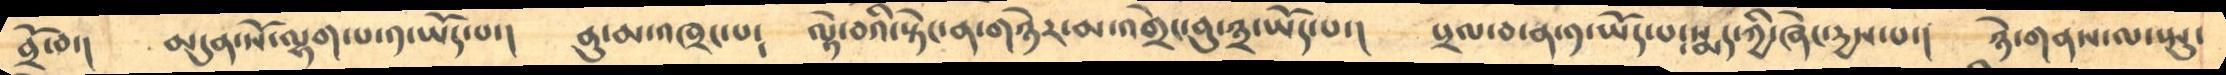བྲོ་བ་།      མདུན་སོ་ལྷག་པ་༡་ཡོད་པ་།    ནུ་མ་འཁྲང་པ༴      ལྟེ་བའི་སྟེང་ན་གཉེར་མ་འགྲེང་བུ་༣་ཡོད་པ་།    པྲལ་བ་ན་༡་ཡོད་པ༴སྨད་ཀྱི་ཞེང་དྱས་པ་།    ཉེ་གནས་ལ་སྤུ་
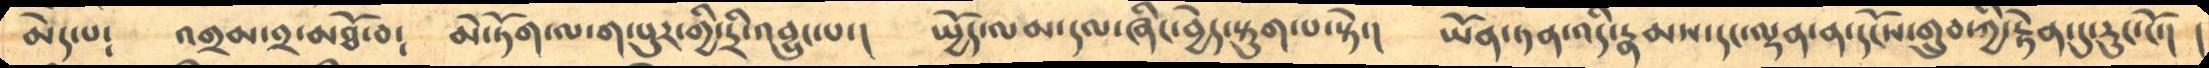མེད་པ༴   འགྲམ་༢་མཐོ་བ༴    མེ་ཏོག་ལ་ག་པུར་གྱི་དྲི་འབྱུང་པ་།      སྤྱོད་ལམ་དལ་ཞིང་བྱེད་སྟུག་པ་སྟེ་།      ཡོན་ཏན་འདི་རྣམས་དང་ལྡན་ན་དངོས་གྲུབ་ཀྱི་རྟེན་དུ་རུང་ངོ་།   །
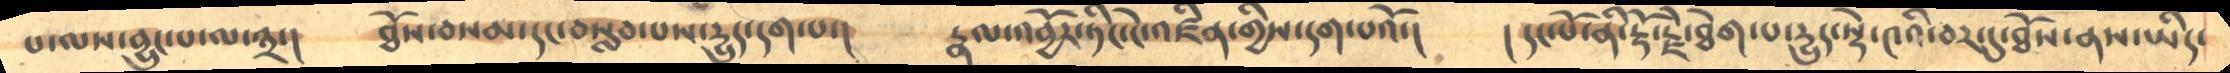པ་ལས་བྱུང་པ་ལ་༣་།     ཐོས་བསམ་དང་བསླབ་པས་དྱུད་དག་པ་།     རྣལ་འབྱོར་ཏིང་ངེ་འཛིན་གྱིས་དག་པའོ་།    །དང་པོ་ནི་རྡོ་རྗེ་ཐེག་པ་དྱུད་སྡེ་༤འི་བར་དུ་ཐོས་ནས་ཡིད་
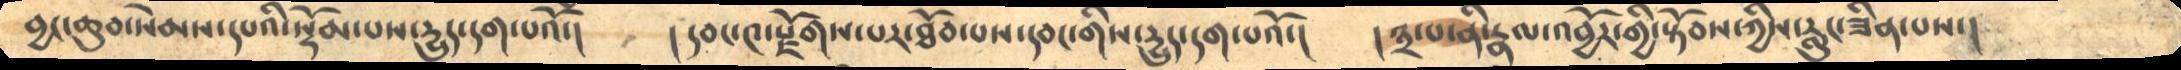བྱང་ཆུབ་སེམས་དཔའི་སྡོམ་པས་དྱུད་དག་པའོ་།      །དབང་༤་རྫོགས་པར་ཐོབ་པས་དབང་གིས་དྱུད་དག་པའོ་།     །༣་པ་ནི་རྣལ་འབྱོར་གྱི་སྟོབས་ཀྱིས་རླུང་ཟིན་པས་།
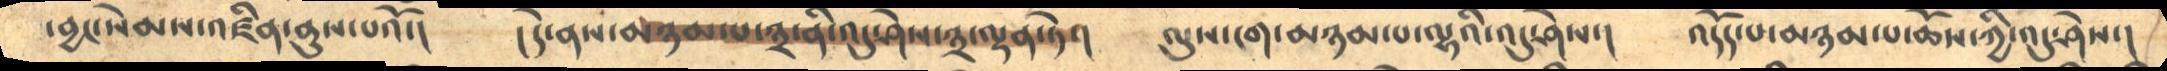བྱང་སེམས་འཛིན་ནུས་པའོ་།       །དེ་ནས་མཉམ་པ་༣་ནི་འདུ་ཤེས་༣་ལྡན་ཏེ་།     ལུས་ངག་མཉམ་པ་ལྷའི་འདུ་ཤེས་།    འདོད་པ་མཉམ་པ་ཆོས་ཀྱི་འདུ་ཤེས་།
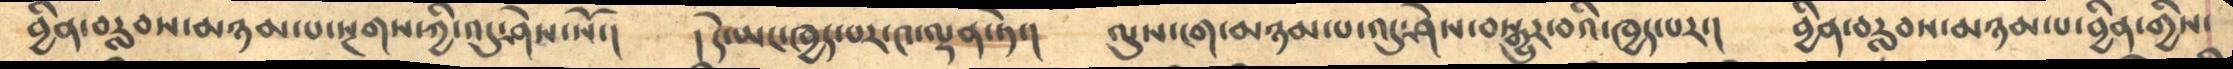བྱིན་བརླབས་མཉམ་པ་སྔགས་ཀྱི་འདུ་ཤེས་སོ་།     །དེ་ཡང་ཁྱད་པར་༤་ལྡན་ཏེ་།    ལུས་ངག་མཉམ་པ་འདུ་ཤེས་བསྒྱུར་བའི་ཁྱད་པར་།   བྱིན་བརླབས་མཉམ་པ་བྱིན་གྱིས་
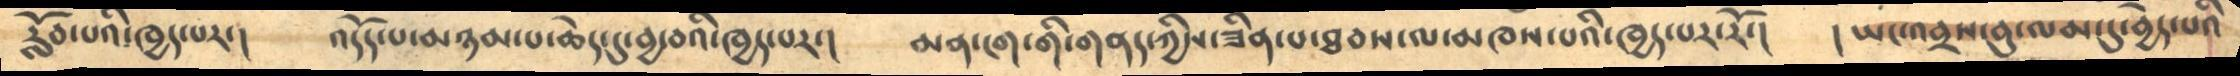རློབ་པའི་ཁྱད་པར་།    འདོད་པ་མཉམ་པ་ཆེ་་དུ་བྱ་བའི་ཁྱད་པར་།   མན་ངག་གི་གནད་ཀྱིས་ཟིན་པ་ཐབས་ལ་མཁས་པའི་ཁྱད་པར་རོ་།      །ཡང་འབྲས་བུ་ལམ་དུ་བྱེད་པའི
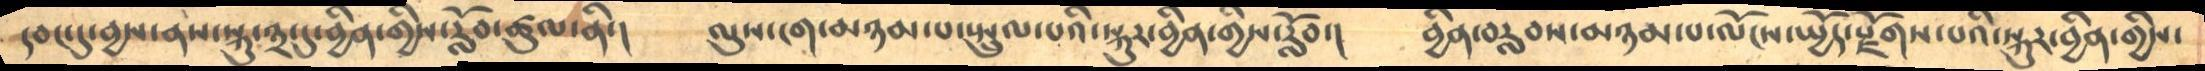དབང་དུ་བྱས་ནས་སྐུ་༣་དུ་བྱིན་གྱིས་རློབ་ཚུལ་ནི་།      ལུས་ངག་མཉམ་པ་སྤྲུལ་པའི་སྐུར་བྱིན་གྱིས་རློབ་།     བྱིན་བརླབས་མཉམ་པ་ལོངས་སྤྱོད་སྫོགས་པའི་སྐུར་བྱིན་གྱིས་
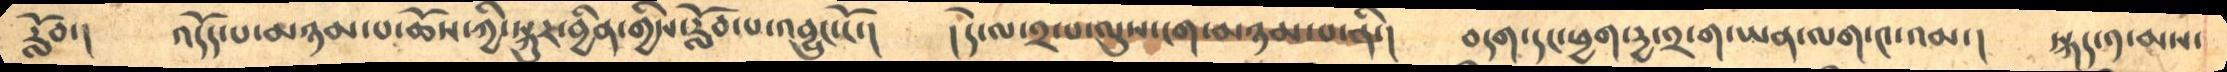རློབ་།       འདོད་པ་མཉམ་པ་ཆོས་ཀྱི་སྐུར་བྱིན་གྱིས་རློབ་པ་འབྱུང་ངོ་།     །དེ་ལ་༢་པ་ལུས་ངག་མཉམ་པ་ནི་།     བདག་དང་ཕྱག་དྱ་༢་ག་ཡན་ལག་༤་འམ་།     སྐད་༡་མས་
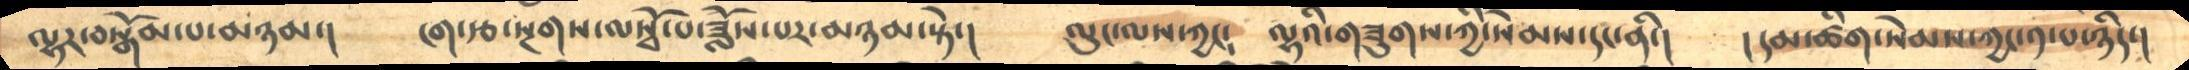ལྷར་བསྒོམ་པ་མཉམ་།     ངག་རྩ་སྔགས་ལསྭོ་པ་ཟློས་པར་མཉམ་སྟེ་།    ལུང་ལས་ཀྱང༴   ལྷའི་གཟུགས་ཀྱི་སེམས་དང་ནི་།      །དམ་ཚིག་སེམས་ཀྱང་༡་པ་ཉིད་།
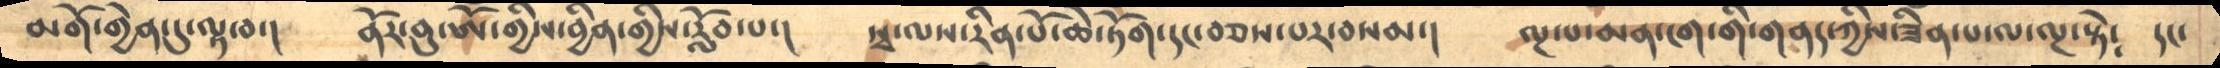མགོ་གྱེན་དུ་ལྟ་བ་།        ནོར་བུ་ཨོཾ་གྱིས་བྱིན་གྱིས་རློབ་པ་།     སྭ་ལས་རིན་པོ་ཆེ་ཏོག་དང་བཅས་པར་བསམ་།    ལྔ་པ་མན་ངག་གི་གནད་ཀྱིས་ཟིན་པ་ལ་ལྔ་སྟེ༴     དང་
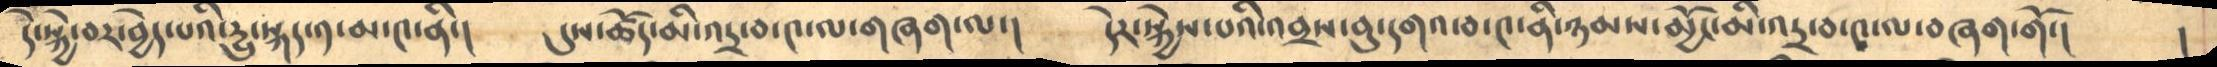དེ་སྐྱེ་བར་བྱེད་པའི་དྱུ་སྐད་༡་མ་༤་ནི་།    དུས་ཚོད་མི་འདྲ་བ་༤་ལ་གཞག་ལ་།     དེར་སྐྱེས་པའི་འབྲས་བུ་དགའ་བ་༤་ནི་ཉམས་མྱོང་མི་འདྲ་བ་༤་ལ་བཞག་གོ་།   །
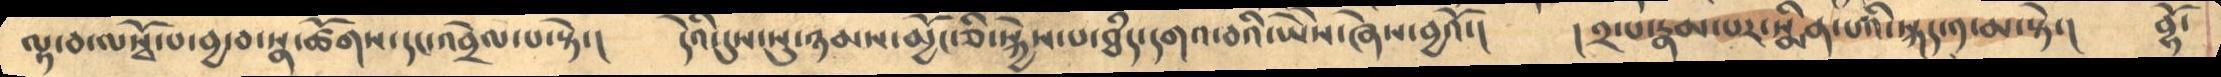ལྟ་བ་ལསྭོ་པ་བྱ་བ་སྣ་ཚོགས་དང་འབྲེལ་པ་སྟེ་།     དེའི་དུས་སུ་ཉམས་མྱོང་ཅི་སྐྱེས་པ་ཐཾད་དགའ་བའི་ཡཻས་ཞེས་བྱའོ་།    །༢་པ་རྣམ་པར་སྨིན་པའི་སྐད་༡་མ་སྟེ་།    བྷོ་
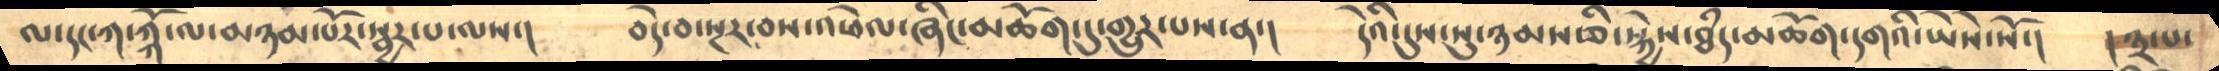ལ་དང་ཀ་ཀྐོ་ལ་མཉམ་པོར་སྦྱར་པ་ལས་།      བདེ་བ་སྔར་བས་འཕེལ་ཞིང་མཆོག་དུ་གྱུར་པས་ན་།    དེའི་དུས་སུ་ཉམས་ཅི་སྐྱེས་ཐཾད་མཆོག་དགའི་ཡཻས་སོ་།      །༣་པ་
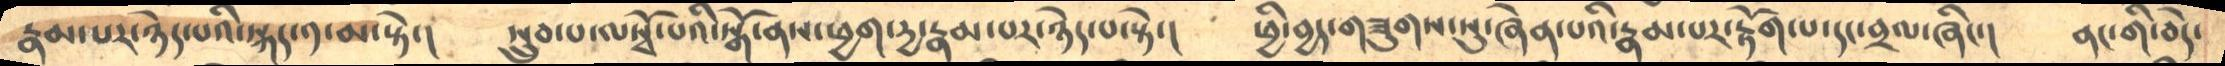རྣམ་པར་ཉེད་པའི་སྐད་༡་མ་སྟེ་།      སྲུབ་པ་ལསྭོ་པའི་སྒོ་ནས་ཕྱག་དྱ་རྣམ་པར་ཉེད་པ་སྟེ་།   ཕྱི་བྱད་གཟུགས་སུ་ཞེན་པའི་རྣམ་པར་རྟོག་པ་དང་བྲལ་ཞིང་།    ནང་གི་བདེ་
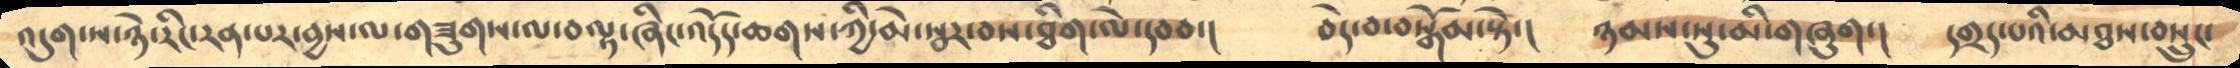འདུག་ས་ཉེ་རིང་རན་པར་བྱས་ལ་གཟུགས་ལ་བལྟ་ཞིང་འདོད་ཆགས་ཀྱི་མེ་སྦར་བས་ཐིག་ལེ་དབབ་།   བདེ་བ་བསྒོམ་སྟེ་།   ཉམས་སུ་མི་གཞུག་།   དགྲད་པའི་མཐས་བསྲུང་
